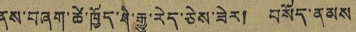ནས་བཞག་ཚེ་ཁྱོད་ཤེ་རྒྱུ་རེད་ཅེས་ཟེར། བསོད་ནམས
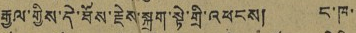རྒྱལ་གྱིས་དེ་ཐོས་རྗེས་སྒྲག་སྟེ་གྲི་འཕངས། ང་ཁ་
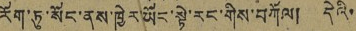རོག་ཏུ་སོང་ནས་ཁྱེར་ཡོང་སྟེ་རང་གིས་བཀོད། དེའི་
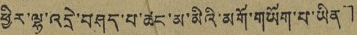ཕྱིར་ལྷ་འདྲེ་བཤད་པ་ཚང་མ་མིའི་མགོ་གཡོག་པ་ཡིན」
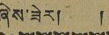ཞེས་ཟེར། །
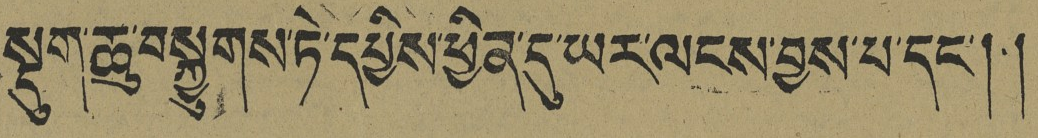སྡུག་ཆུ་བསྐྱུགས་ཏེ་དཔྱིས་ཕྱིན་དུ་ཡར་ལངས་བྱས་པ་དང་༎
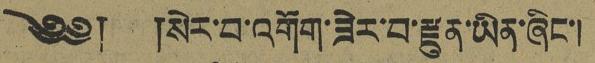༄༅། །སེར་བ་འགོག་ཟེར་བ་རྫུན་ཡིན་ཞིང་།
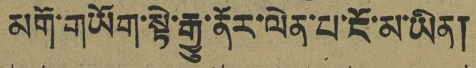མགོ་གཡོག་སྟེ་རྒྱུ་ནོར་ལེན་པ་ངོ་མ་ཡིན།
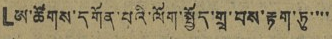『ཨ་ཚོགས་དགོན་པའི་ལོག་སྤྱོད་གྲྭ་བས་རྟག་ཏུ་་་་
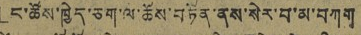「ང་ཚོས་ཁྱེད་ཅག་ལ་ཆོས་བཏོན་ནས་སེར་བ་མ་བཀག
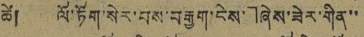ཚེ། ལོ་ཏོག་སེར་བས་བརྒྱག་ངེས་」ཞེས་ཟེར་གིན་་
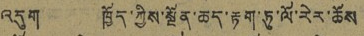འདུག ཁྱོད་ཀྱིས་སྔོན་ཆད་རྟག་ཏུ་ལོ་རེར་ཆོས
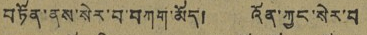བཏོན་ནས་སེར་བ་བཀག་མོད། འོན་ཀྱང་སེར་བ
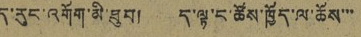ད་རུང་འགོག་མི་ཐུབ། ད་ལྟ་ང་ཚོས་ཁྱོད་ལ་ཆོས་་་
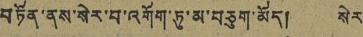བཏོན་ནས་སེར་བ་འགོག་ཏུ་མ་བཅུག་མོད། སེར
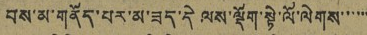བས་མ་གནོད་པར་མ་ཟད་དེ ལས་ལྡོག་སྟེ་ལོ་ལེགས་་་་་་
